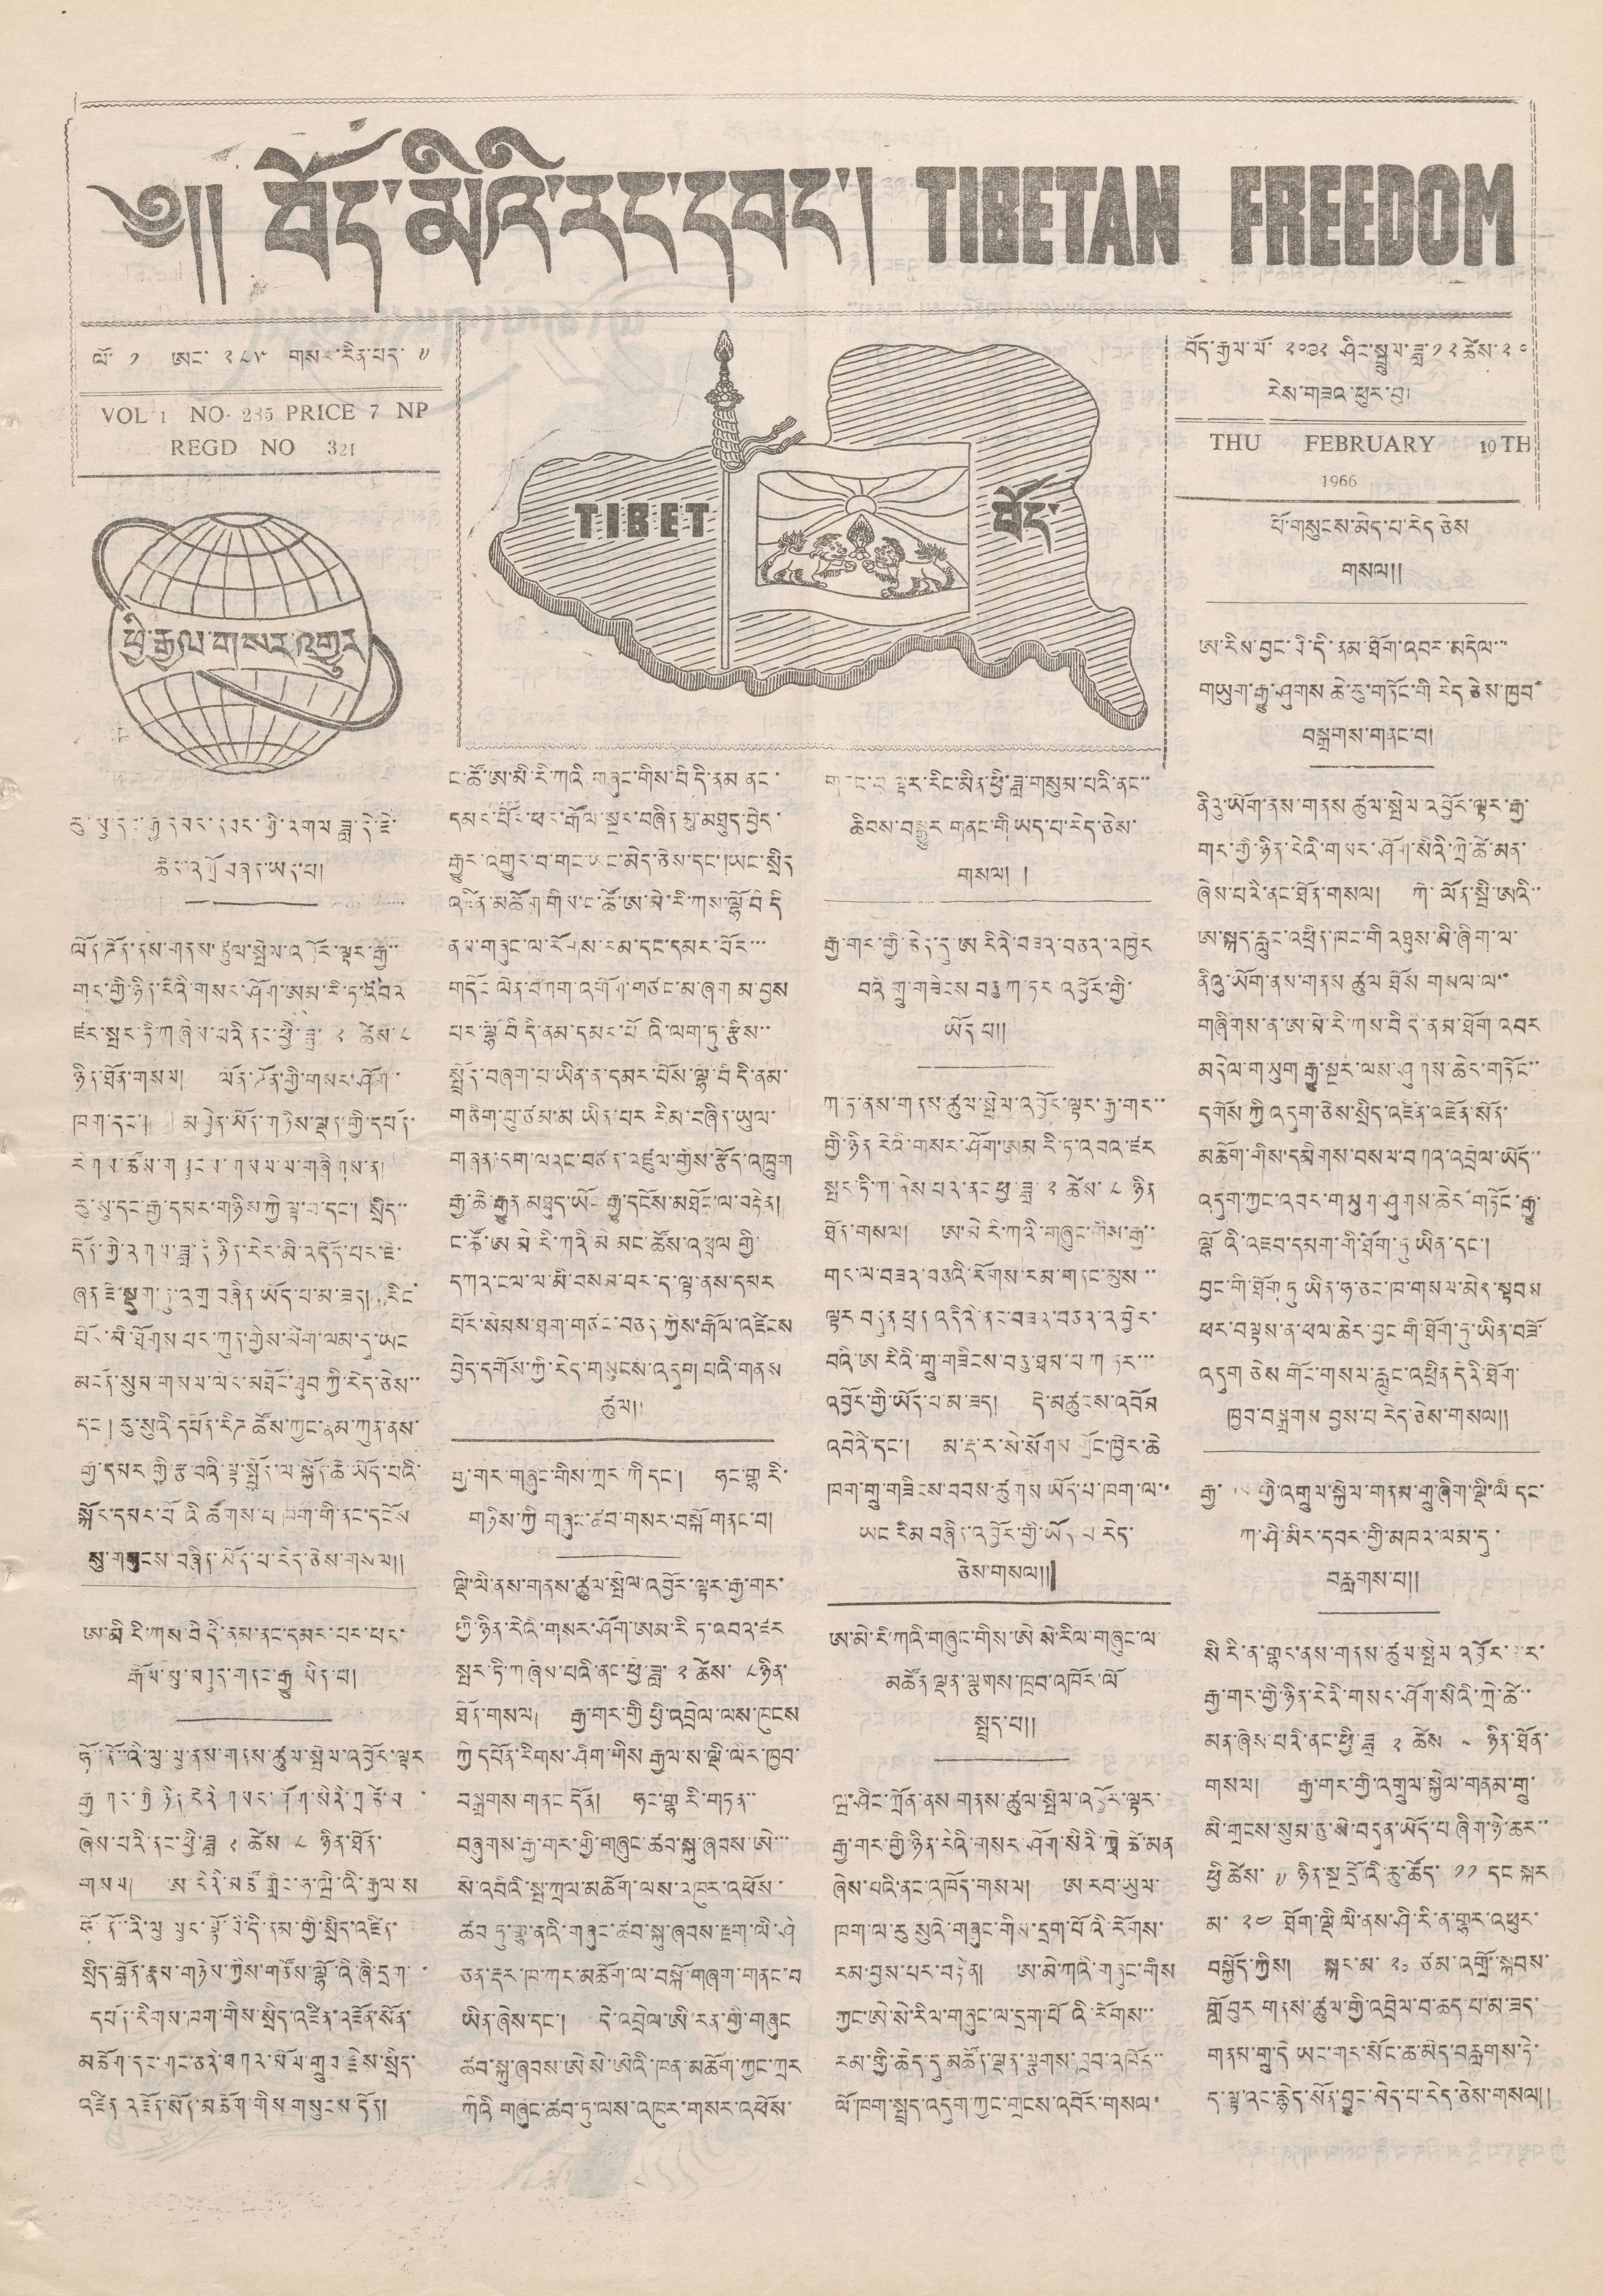༄།། བོད་མིའི་རང་དབང་། TIBETAN FREEDOM
ལོ་ ༡ ཨང་ ༢༨༥ གསར་རིན་པར་ ༧
VOL 1 NO 285 PRICE 7 NP
REGD NO 321
བོད་རྒྱལ་ལོ་ ༢༠༩༢ ཤིང་སྤྲུལ་ཟླ་ ༡༢ ཚེས་ ༢༠
རེས་གཟའ་ཕུར་བུ།
THU FEBRUARY 10TH
1966
TIBET བོད་
ཕྱི་རྒྱལ་གསར་འགྱུར
རུ་སུ་དང་རྒྱ་དམར་དབར་གྱི་འགལ ཟླ་དེ་ཇེ་
ཆེར་འགྲོ བཞན་ཡད་པ།
ལོན་ཌོན་ནས་གནས་ཚུལ་སྤེལ་འཁོར་ལྟར་རྒྱ་་
གར་གྱི་ཉིན་རེའི་གསར་ཤོག་ཨམ་རི་ཏ་འབའ
ཛར་སྤར་ཏི་ཀ ཞིས་པའི་ནང་ཕྱི་ཟླ་ ༢ ཚེས་ ༨
ཉིན་ཐོན་གསལ། ལོན་ཌོན་གྱི་གསར་ཤོག་
ཁག་དང་། མཁྱེན་ཡོན་གཉིས་ལྡན་གྱི་དཔོན་
རིགས་ཚོས་གསུངས་གསལ་ལ་གཞིགས་ན།
རུ་སུ་དང་རྒྱ་དམར་གཉིས་ཀྱི་ལྟ་བ་དང་། སྲིད་་
དོན་གྱི་འགལ་ཟླ་དེ་ཉིན་རེར་མི་འདོད་པར་ཇེ་
ཞན་ཇི་སྡུག་ཏུ་འགྲ་བཞིན་ཡོད་པ་མ་ཟད། རིང་
ོཔྲ་མི་ཐོགས་པར་ཀུན་གྱིས་མིག་ལམ་དུ་ཡང
མངོན་སུམ་གསལ་ལར་མཐོང་ཐུབ་ཀྱི་རེད་ཅེས་་
དང་། རུ་སུའི་དཔོན་རིཌ་ཚོས་ཀྱང་རྣམ་ཀུན་ནས་
རྒྱ་དམར་གྱི་རྩ་བའི་ལྟ་སྤྱོད་ལ་སྐྱོད་ཆེ་ཡོད་པའི་
སྐོར་དམར་པོའི་ཚོགས་པ་ཁག་གི་ནང་དནོས
སུ་གགུངས་བཞིན་ཡོད་པ་རེད་ཅེས་གསལ༎
ཨ་མི་རི་ཀས་བི དི་ནམ་ནང་དམར་པར་ཕར་
རྒོལ་མུ་མཐུད་གནང་རྒྱུ མིན་པ།
ཧོ་ནོ་འི་ལུ་ལུ་ནས་གནས་ཚུལ་སྤེལ་འབྱོར་ལྟར
རྒྱ གར་གྱི ཉིན རེའི གསར་ཤོག་སིའི་གྲ ཚེ་མ་
ཞེས་པའི་ནང་ཕྱི་ཟླ་ ༢ ཚེས་ ༨ ཉིན་ཐོན་
གསལ། ཨ་རིའི་མཚོ་གླིང་ཧ་ཝི་འི་རྒྱལ་ས
ཧོ་ནོ་་འི་ལུ ལུར་ལྷོ་བི་དི་ནམ་གྱི་སྲིད་འཛིན་
སྲིད་བློན་རྣམ་གཉིས་ཀྱིས་གཙོས་ལྷོའི་ཞི་དྲག་
དཔོན་རིགས་ཁག་གིས་སྲིད་འཛིན་འཇོན་སོན་
མཆོག་དང་གང་ཅིའི་བཀའ་མོལ་གྲུབ་རྗེས་སྲིད་
འཛིན འཇོན་སོན་མཆོག་གིས གསུངས་དོན།།
ང་ཚོ་ཨ་མི་རི་ཀའི གཞུང་གིས་བི དི་ནམ ནང་
དམར་པོར་ཕར་རྒོལ་སྔར་བཞིན མུ་མཐུད་བྱེད་
རྒྱུར་འགྱུར་བ་གང་ཡང་མེད་ཅེས་དང་།ཡང་སྲིད
འཛིན་མཆོག་གིས་ང་ཚོ་ཨ་མི་རི་ཀས་ལྷོ བི དི
ནམ་གཞུང་ལ་རོགས་རམ་དང་དམར་པོར་་་
གདོང ལེན་བཀག་འགོག་གཙང་མ་ཞག མ་བྱས
པར་ལྷོ བི དི་ནམ་དམར་པོའི་ལག་ཏུ་རྩིས་་
སྤྲོད་བཞག་པ་ཡིན་ན་དམར་པོས་ལྟ་བི དི་ནམ་
གཅིག་པུ་ཙམ་མ ཡིན་པར རིམ་བཞིན་ཡུལ་
གཞན་དག་ལའང་བཙན་འཛུལ་གྱིས་རྩོད་འཁྲུག
རྒྱ་ཆེ་རྒྱུན མཐུན་ཡོང་རྒྱུ་དངོས་མཐོང་ལ་བརྟེན།
ང་ཚོ་ཨ མི་རི་ཀའི་མི མང་ཚོས་འཕྲལ གྱི་
དཀའ་ངལ་ལ་མི་བསམ་པར་ད་ལྟ་ནས་དམར
པོར་སེམས་ཐག་གཙང་བཅད་ཀྱིས་རྒོལ་འཛིངས
བྱེད་དགོས་ཀྱི་རེད་གསུངས་འདུག་པའི་གནས
ཚུལ།།
རྒྱ་གར་གཞུང་གིས་ཀྲར་ཀི དང་། ཧང་གྷ རི་
གཉིས་ཀྱི གཞུང་ཚབ་གསར་བསྐོ གནང་བ།
ལྡི་ལི་ནས་གནས་ཚུལ་སྤེལ་འབྱོར་ལྟར་རྒྱ་གར་
གྱི་ཉིན་རེའི་གསར་ཤོག་ཨམ་རི ཏ་འབའ་ཛར
སྤར་ཏི་ཀ ཞེས་པའི་ནང་ཕྱི་ཟླ་ ༢ ཚེས་ ༨ ཉིན་
ཐོན་གསལ། རྒྱ་གར་གྱི ཕྱི་འབྲེལ་ལས་ཁུངས
ཀྱི དཔོན་རིགས་ཤིག་གིས རྒྱལ་ས་ལྡི་ལིར་ཁྱབ་
བསྒྲགས་གནང དོན། ཧང་གྷ རི་གཏན་་
བཞུགས་རྒྱ་གར་གྱི་གཞུང་ཚབ་སྐུ་ཞབས་ཨེ་་་
སེ་འབིའི་སྤ་ཀྲལ་མཆོག་ལས་འཁུར་འཕོས་
ཚབ་ཏུ་གྷ་ནའི་གཞུང་ཚབ་སྐུ་ཞབས་རྫག་ལི་ཤེ་
ཅན་རྡར་ཁ་ཀར་མཆོག་ལ་བསྐོ་གཞག་གནང་བ
ཡིན་ཞེས་དང་། དེ་འབྲེལ་ཨི་རན་གྱི་གཞུང་
ཚབ་སྐུ་ཞབས་ཨེ སེ་ཨེའི་ཁན་མཆོག་ཀྱང་ཀྲར
ཀིའི གཞུང་ཚབ་ཏུ་ལས་འཁུལ་གསར་འཕོས་
གསང་བ ལྟར་རིན་མིན་ཕྱི་ཟླ་གསུམ་པའི་ནང་་
ཆིབས་བསྒྱུར གནང་གྱི་ཡད་པ་རེད་ཅེས་
གསལ།།
རྒྱ་གར་གྱི་ཆེད་དུ་ཨ རིའི་བཟའ་བཅའ་འཁྱེར
བའི གྲུ་གཟེངས བཅུ ཀ་ཏར་འབྱོར་གྱི་
ཡོད པ།།
ཀ་ཏ་ནས་གནས་ཚུལ་སྤེལ་འབྱོར་ལྟར་རྒྱ་གར་་
གྱི་ཉིན རེའི་གསར་ཤོགས་ཨམ རི་ཏ་འབའ་ཛར
སྤར་ཏི་ཀ་ཞེས་པའི་ནང ཕྱ་ཟླ་ ༢ ཚེས་ ༨ ཉིན
ཐོན་གསལ། ཨ་མེ རི་ཀའི་གཞུང་གིས་རྒྱ་་
གང་ལ་བཟའ་བརྩའི་རོགས་རམ་གནང་མུས་་
ལྟར བདུན ཕྲན འདིའི་ནང་བཟའ་བཅའ་འཁྱེར་
བའི་ཨ རིའི་གྲུ་གཟིངས་བཅུ་ཐབ་པ ཀ ཏར་་་
འབྱོར་གྱི་ཡོད་པ་མ་ཟད། དེ་མཚུངས་འབོམ་
འབེའི་དང་། མ་རྡ་ར་སེ་སོགས གྲོང་ཁྱེར་ཆེ
ཁག་གྲུ་གཟིགས་བབས་ཚུགས ཡོད་པ་ཁག་ལ་་
ཡང རིམ བཞིན་འབྱོར་གྱི་ཡོད་པ་རེད་
ཅེས་གསལ།།
ཨ་མེ་རི་ཀཨའི་གཞུང་གིས་ཨེ སེ་རིལ་གཞུང་ལ
མཚོན་ལྡན་ལྕགས་ཁྲབ་འཁོར་ལོ
སྤྲད་པ།།
ཝ་ཤིང་ཀྲོན་ནས གནས་ཚུལ་སྤེལ་འབྱོར་ལྟར་
རྒྱ་གར་གྱི་ཉིན་རེའི་གསར་ཤོག་སིའི་ཀྲེ་ཚེ་མན
ཞེས་པའི་ནང་འཁོད་གསལ། ཨ་རབ་ཡུལ་
ཁག་ལ་རུ སུའི་གཞུང་གིས་དྲག་པོའི་རོགས་
རམ་བྱས་པར་བརྟེན། ཨ་མེ་ཀའི་གཞུང་གིས
ཀྱང་ཨེ་སེ་རིལ་གཞུང་ལ་དྲག་པོའི་རོགས་་
རམ་གྱི་ཆེད་དུ་མཆོད་ལྡན་ལྕགས་ཁྲབ་འཁོར་་
ལོ་ཁག་སྤྲད་འདུག་ཀྱང་གྲངས་འབོར་གསལ་
པོ་གསུངས་མེད་པ་རེད་ཅེས
གསལ།།
ཨ་རིས་བྱང་བི་དི་ནམ་ཐོག་འབར་མདེལ་་་
གཡུག་རྒྱུ་ཤུགས ཆེ་རུ་གཏོང་གི རེད་ཅེས་ཁྱབ་
བསྒྲགས་གནང་བ།
ནིའུ་ཡོག་ནས་གནས་ཚུལ་སྤེལ་འབྱོར་ལྟར་རྒྱ་
གར་གྱི་ཉིན་རེའི་གསར་ཤོག་སིའི་ཀྲེ་ཚེ་མན་
ཞེས་པའི་ནང་ཐོན་གསལ། ཀི་ལོན་སྦི་ཨའི་་
ཨ་སྐད་རླུང་འཕྲིན་ཁང་གི འཐུས་མི་ཞིག་ལ་
ནིའུ་ཡོག་ནས་གནས་ཚུལ ཐོས གསལ་ལ་་
གཞིགས་ན་ཨ་མེ་རི་ཀས་བི དི་ནས་ཐོག འབར
མདེལ་གཡུག རྒྱུ་སྔར་ལས་ཤུགས་ཆེར་གཏོང་་
དགོས ཀྱི འདུག་ཅེས་སྲིད་འཛིན་འཇོན་སོན་
མཆོག་གིས་དམིགས་བསལ་བཀའ་འབྲེལ་ཡོད་་
འདུག་ཀྱང་འབར་གཡུག་ཤུགས་ཆེར་གཏོང་རྒྱུ་
ལྷོའི་འཇབ་དམག་གི་ཐོག་ཏུ་ཡིན་དང་།
བྱང་གི་ཐོག ཏུ ཡིན་ཧ་ཅང་ཁ་གསལ་མེད་སྟབས
ཕར་བལྟས་ན་ཕལ་ཆེར་བྱང་གི་ཐོག་ཏུ་ཡིན་བཟོ་
འདུག ཅེས གོང་གསལ་རླུང་འཕྲིན དེའི་ཐོག་
ཁྱབ་བསྒྲགས བྱས་པ རེད་ཅེས་གསལ།།
རྒྱ་གར་གྱི་འགྲུལ་སྐྱེལ་གནམ་གྲུ་ཞིག་ལྡི་ལི དང་
ཀ་ཤི་མིར་དབར་གི་མཁའ་ལམ་དུ་
བརླགས་པ།།
སི རི་ན་གྷར་ནས་གནས་ཚུལ་སྤེལ་འབྱོར་ལྟར་
རྒྱ་གར་གྱི་ཉིན་རེའི་གསར་ཤོག་སིའི་ཀྲེ་ཚེ་་
མན་ཞེས་པའི་ནང་ཕྱི་ཟླ་ ༢ ཚེས་ ༨ ཉིན་ཐོན་
གསལ། རྒྱ་གར་གྱི་འགྲུལ་སྐྱེལ་གནམ་གྲུ་
མི་གྲངས་སུམ་ཅུ་སོ་བདུན་ཡོད་པ ཞིག་ཉེ་ཆར་་
ཕྱི ཚེས་ ༧ ཉིན་སྔ དྲོའི་ཚུ་ཚོད་ ༡༡ དང སྐར
མ་ ༢༤ ཐོག་ལྡི ལི་ནས་ཤི་རི་ན་གྷར་འཕུར་
བསྐྱོད་ཀྱིས། སྐར་མ་ ༢༠ ཙམ་འགྲོ་་སྐབས་
གློ བུར གནས་ཚུལ་གྱི་འབྲེལ་བ་ཆད་པ་མ་ཟད་
གནམ་གྲུ་དེ ཡང་གར་སོང་ཆ་མེད་བརླབས་ཏེ་
ད་ལྟ་འང་རྙེད་སོན་བྱུང་མེད་པ་རེད་ཅེས་གསལ།།
